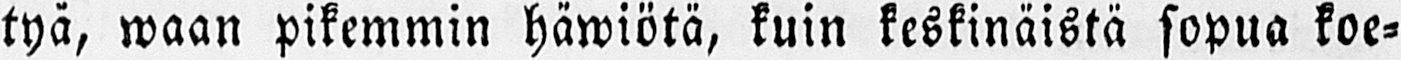tyä, waan pikemmin häwiötä, kuin keskinäistä sopua koe-
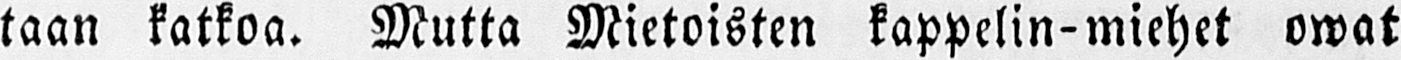taan katkoa. Mutta Mietoisten kappelin-miehet owat
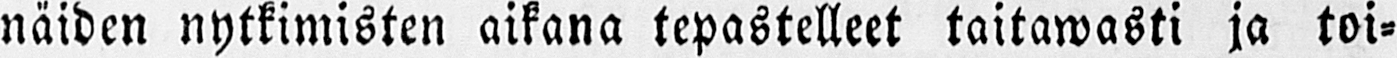näiden nytkimisten aikana tepastelleet taitawasti ja toi-
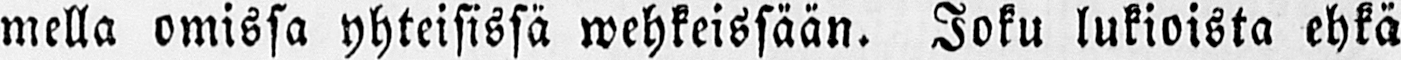mella omissa yhteisissä wehkeissään. Joku lukioista ehkä
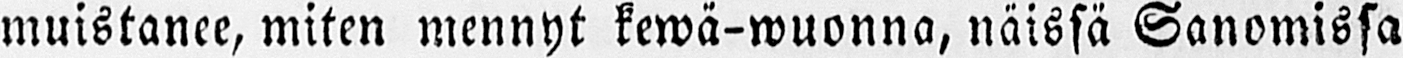muistanee, miten mennyt kewä-wuonna, näissä Sanomissa
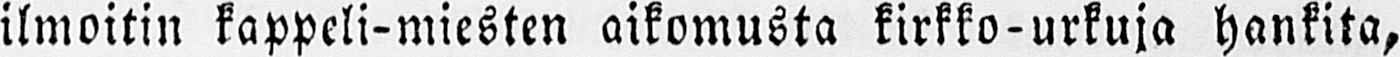ilmoitin kappeli-miesten aikomusta kirkko-urkuja hankita,
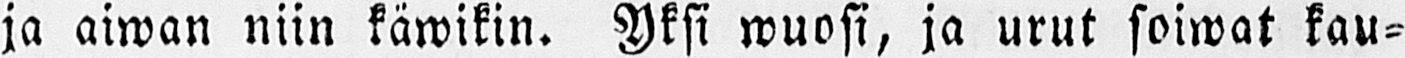ja aiwan niin käwikin. Yksi wuosi, ja urut soiwat kau-
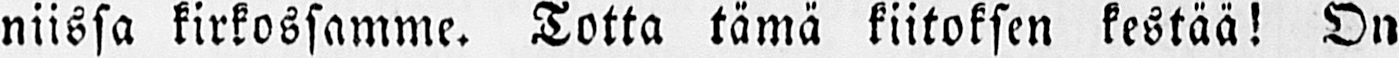niissa kirkossamme. Totta tämä kiitoksen kestää! On
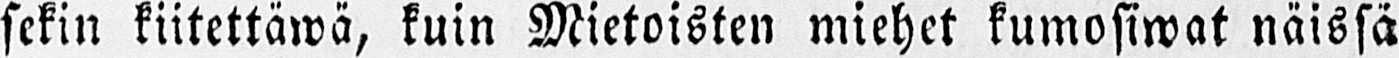sekin kiitettäwä, kuin Mietoisten miehet kumosiwat näissä
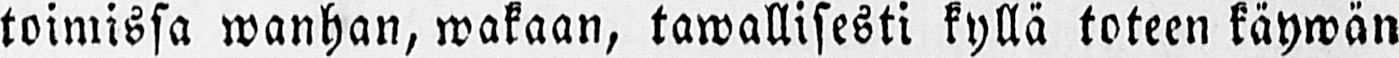toimissa wanhan, wakaan, tawallisesti kyllä toteen käywän
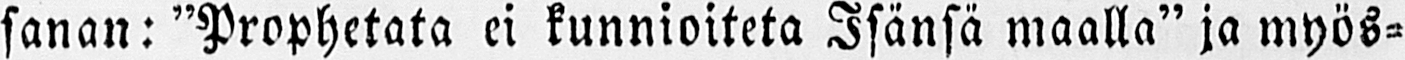sanan: "Prophetata ei kunnioiteta Isänsä maalla" ja myös-
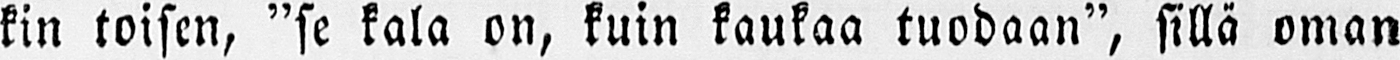kin toisen, "se kala on, kuin kaukaa tuodaan", sillä oman
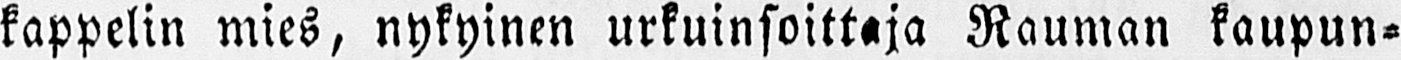kappelin mies, nykyinen urkuinsoittaja Rauman kaupun-
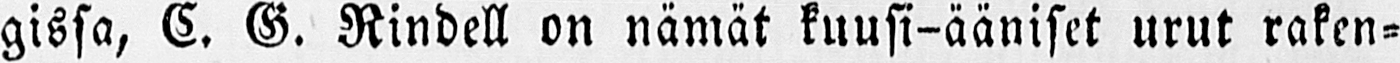gissa, C. G. Rindell on nämät kuusi-ääniset urut raken-
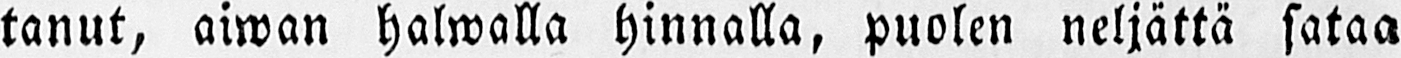tanut, aiwan halwalla hinnalla, puolen neljättä sataa
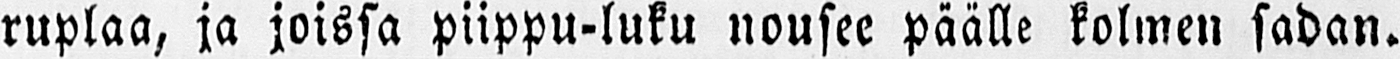ruplaa, ja joissa piippu-luku nousee päälle kolmen sadan.
